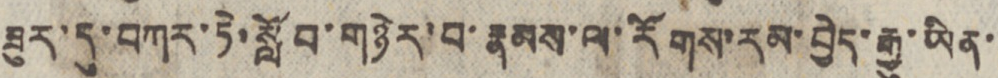ཟུར་དུ་བཀར་ཏེ་སློབ་གཉེར་བ་རྣམས་ལ་རོགས་རམ་བྱེད་རྒྱུ་ཡིན་
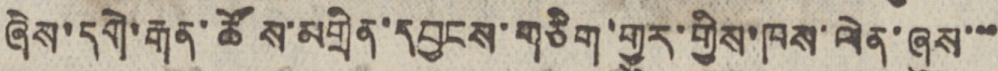ཞེས་དགེ་རྒན་ཚོས་མགྲིན་དབྱངས་གཅིག་གྱུར་གྱིས་ཁས་ལེན་ཞུས་་་
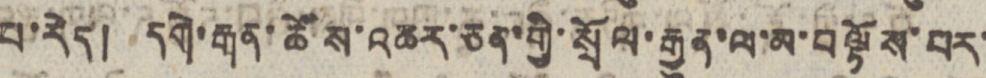པ་རེད། དགེ་རྒན་ཚོས་འཆར་ཅན་གྱི་སྲོལ་རྒྱུན་ལ་མ་བལྟོས་པར་
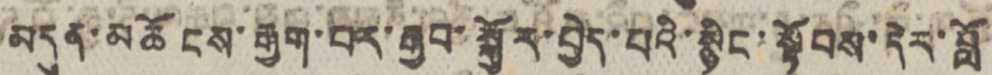མདུན་མཆོངས་རྒྱག་པར་རྒྱབ་སྐྱོར་བྱེད་པའི་སྙིང་སྟོབས་དེར་བློ་
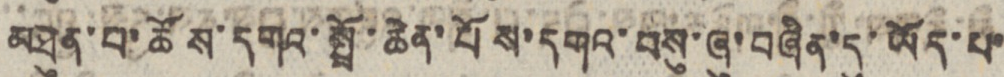མཐུན་པ་ཚོས་དགའ་སྤྲོ་ཆེན་པོས་དགའ་བསུ་ཞུ་བཞིན་དུ་ཡོད་པ་
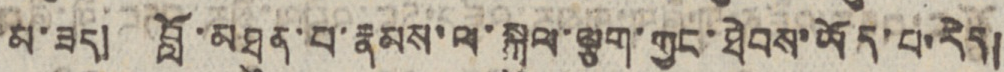མ་ཟད། བློ་མཐུན་པ་རྣམས་ལ་སྐུལ་ལྕག་ཀྱང་ཐེབས་ཡོད་པ་རེད།
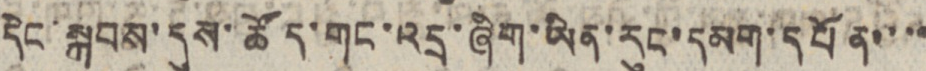དེང་སྐབས་དུས་ཚོད་གང་འདྲ་ཞིག་ཡིན་རུང་དམག་དཔོན་་་་་
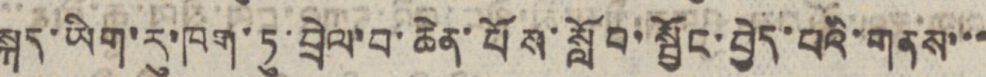སྐད་ཡིག་རུ་ཁག་ཏུ་བྲེལ་བ་ཆེན་པོས་སློབ་སྦྱོང་བྱེད་པའི་གནས་་་
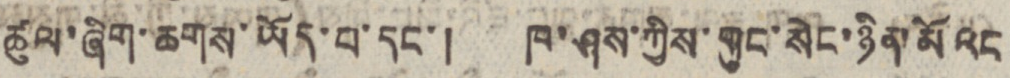ཚུལ་ཞིག་ཆགས་ཡོད་པ་དང་། ཁ་ཤས་ཀྱིས་གུང་སེང་ཉིན་མོའང
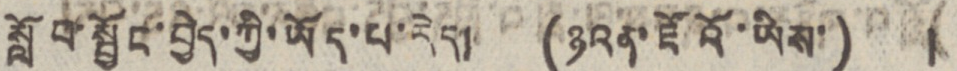སློབ་སྦྱོང་བྱེད་ཀྱི་ཡོད་པ་རེད། (ཉའན་ཇོའོ་ཡིས་) །
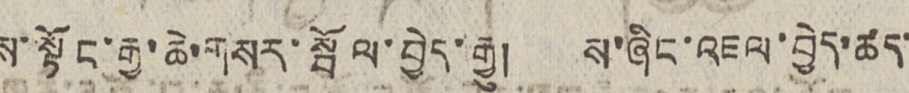ས་སྟོང་རྒྱ་ཆེ་གསར་སྦོལ་བྱེད་རྒྱུ། ས་ཞིང་འཇལ་བྱེད་ཚད་
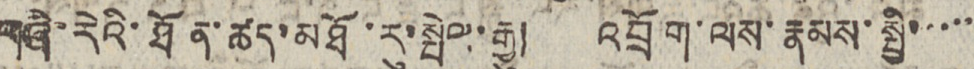གཞི་རེའི་ཐོན་ཚད་མཐོ་རུ་སྤེལ་རྒྱུ། འབྲོག་ལས་རྣམས་སྤྱི་་་་་་
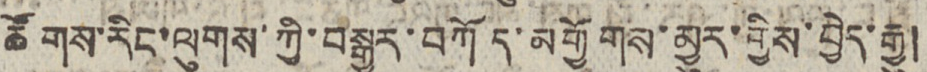ཚོགས་རིང་ལུགས་ཀྱི་བསྒྱུར་བཀོད་མགྱོགས་མྱུར་གྱིས་བྱེད་རྒྱུ།
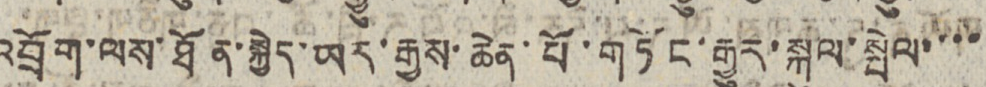འབྲོག་ལས་ཐོན་སྐྱེད་ཡར་རྒྱས་ཆེན་པོ་གཏོང་རྒྱུར་སྐུལ་སྤེལ་་་་
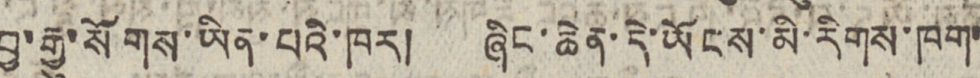བྱ་རྒྱུ་སོགས་ཡིན་པའི་ཁར། ཞིང་ཆེན་དེ་ཡོངས་མི་རིགས་ཁག་
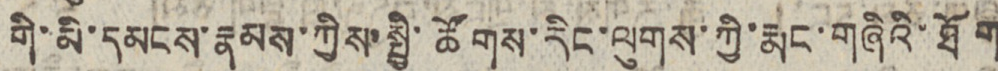གི་མི་དམངས་རྣམས་ཀྱིས་སྤྱི་ཚོགས་རིང་ལུགས་ཀྱི་རྨང་གཞིའི་ཐོག
